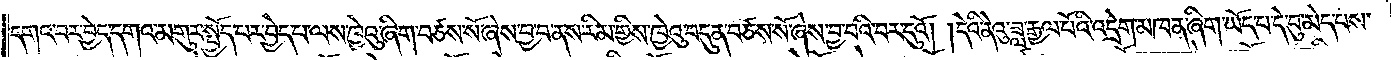དགའ་བར་བྱེད་དགའ་མགུར་སྤྱོད་པར་བྱེད་པ་ལས་ཁྱེའུ་ཞིག་བཙས་སོ་ཞེས་བྱ་བ་ནས་རིམ་གྱིས་ཁྱེའུ་བདུན་བཙས་སོ་ཞེས་བྱ་བའི་བར་དུའོ། །དེའི་ནེའུ་ཟླ་རྒྱལ་པོའི་འདྲེག་མཁན་ཞིག་ཡོད་པ་དེ་བུ་མེད་པས་
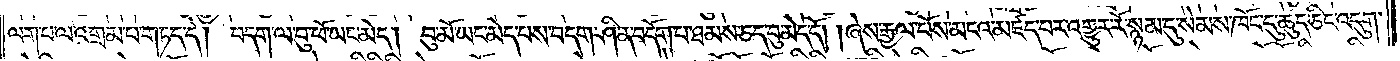ལག་པ་ལ་འགྲམ་པ་གཏད་དེ། བདག་ལ་བུ་ཕོ་ཡང་མེད། བུ་མོ་ཡང་མེད་པས་བདག་ཤིན་བདོག་པ་ཐམས་ཅད་བུ་མེད་དོ། །ཞེས་རྒྱལ་པོས་མངའ་མཛད་པར་འགྱུར་རོ་སྙམ་དུ་སེམས་ཁོང་དུ་ཆུད་ཅིང་འདུག་
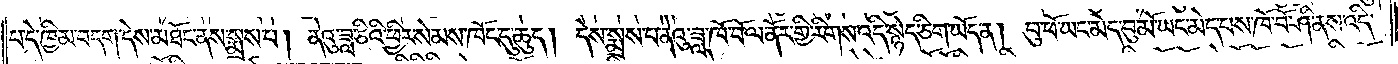པ་དེ་ཁྱིམ་བདག་དེས་མཐོང་ནས་སྨྲས་པ། ནེའུ་ཟླ་ཅིའི་ཕྱིར་སེམས་ཁོང་དུ་ཆུད། དེས་སྨྲས་པ་ནེའུ་ཟླ་ཁོ་བོ་ལ་ནོར་གྱི་རིགས་འདི་སྙེད་ཅིག་ཡོད་ན། བུ་ཕོ་ཡང་མེད་བུ་མོ་ཡང་མེད་པས་ཁོ་བོ་ཤི་ནས་འདི་
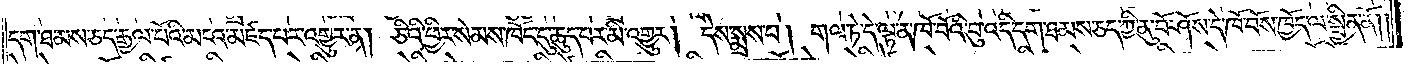དག་ཐམས་ཅད་རྒྱལ་པོའི་མངའ་མཛད་པར་འགྱུར་ན། ཅིའི་ཕྱིར་སེམས་ཁོང་དུ་ཆུད་པར་མི་འགྱུར། དེས་སྨྲས་པ། གལ་ཏེ་དེ་ལྟ་ན་ཁོ་བོའི་བུ་འདི་དག་ཐམས་ཅད་ཀྱི་ནུ་བོ་ཤོས་དེ་ཁོ་བོས་ཁྱོད་ལ་སྦྱིན་ནོ། །
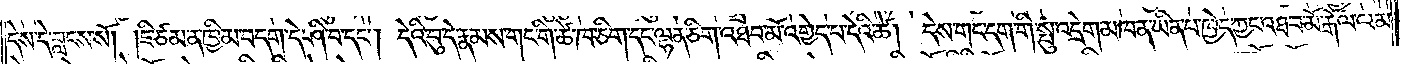དེས་དེ་བླངས་སོ། །ཇི་ཙམ་ན་ཁྱིམ་བདག་དེ་ཤི་བ་དང༌། དེའི་བུ་དེ་རྣམས་གང་གི་ཚེ་ཁ་ཅིག་དང་ལྷན་ཅིག་འཐབ་མོ་འགྱེད་པ་དེའི་ཚེ། དེས་གང་དག་གི་སྤུ་འདྲེག་མཁན་ཡིན་པ་ཁྱེད་ཀྱང་འཐབ་མོ་རྒོལ་ལམ་
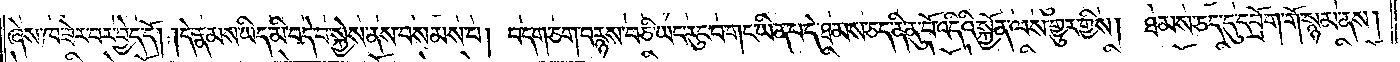ཞེས་ཁ་ཟེར་བར་བྱེད་དོ། །དེ་རྣམས་ཡིད་མི་བདེ་བ་སྐྱེས་ནས་བསམས་པ། བདག་ཅག་བརྙས་པ་ཅི་ཡང་རུང་བ་གང་ཡིན་པ་དེ་ཐམས་ཅད་ནི་ནུ་བོ་འདིའི་སྐྱོན་ལས་གྱུར་གྱིས། ཐམས་ཅད་དུ་དབྲོག་གོ་སྙམ་ནས།
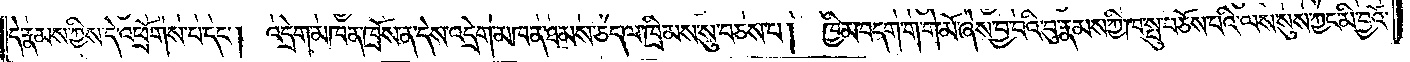དེ་རྣམས་ཀྱིས་དེ་འཕྲོགས་པ་དང༌། འདྲེག་མཁན་ཁྲོས་ན་དེས་འདྲེག་མཁན་ཐམས་ཅད་ལ་ཁྲིམས་སུ་བཅས་པ།  ཁྱིམ་བདག་ག་གེ་མོ་ཞེས་བྱ་བའི་བུ་རྣམས་ཀྱི་ཁ་སྤུ་བཅོས་པའི་ལས་སུས་ཀྱང་མི་བྱའོ་
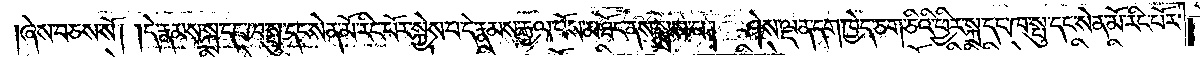།ཞེས་བཅས་སོ། །དེ་རྣམས་སྐྲ་དང་ཁ་སྤུ་དང་སེན་མོ་རིང་པོར་སྐྱེས་པ་དེ་རྣམས་རྒྱལ་པོས་མཐོང་ནས་སྨྲས་པ། ཤེས་ལྡན་དག་ཁྱེད་ཅག་ཅིའི་ཕྱིར་སྐྲ་དང་ཁ་སྤུ་དང་སེན་མོ་རིང་པོར་
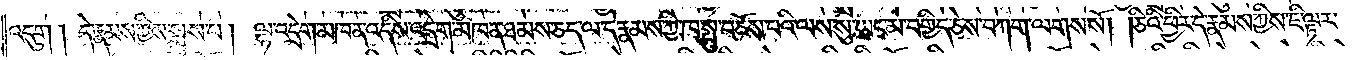འདུག །དེ་རྣམས་ཀྱིས་སྨྲས་པ། ལྷ་འདྲེག་མཁན་འདིས་འདྲེག་མཁན་ཐམས་ཅད་ལ་དེ་རྣམས་ཀྱི་ཁ་སྤུ་བཅོས་པའི་ལས་སུ་ཡང་མ་བགྱིད་ཅེས་བཀག་ལགས་སོ། །ཅིའི་ཕྱིར་དེ་རྣམས་ཀྱིས་ཇི་ལྟར་
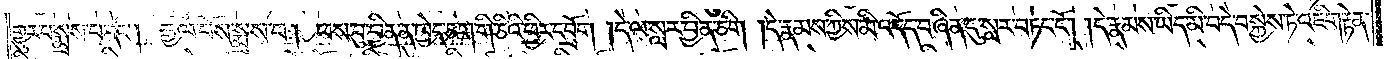གྱུར་པ་སྨྲས་པ་དང༌། རྒྱལ་པོས་སྨྲས་པ། ཕས་བུ་བྱིན་ན་ཁྱེད་ཅག་གི་ཅིའི་ཕྱིར་དབྲོག །དེ་ལ་སླར་བྱིན་ཅིག །དེ་རྣམས་ཀྱིས་མི་འདོད་བཞིན་དུ་སླར་བཏང་ངོ༌། །དེ་རྣམས་ཡིད་མི་བདེ་བ་སྐྱེས་ཏེ་འཇིག་རྟེན་
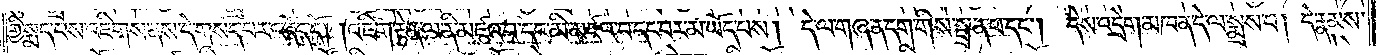གྱི་སྨད་པས་འཇིགས་ནས་དེ་གསད་པར་འདོད་དོ། །འཇིག་རྟེན་ལ་ནི་མཛའ་བ་དང་མི་མཛའ་བ་དང་བར་མ་ཡོད་པས། དེ་ལ་གཞན་དག་གིས་སྦྲན་པ་དང༌། དེས་འདྲེག་མཁན་དེ་ལ་སྨྲས་པ། དེ་རྣམས་
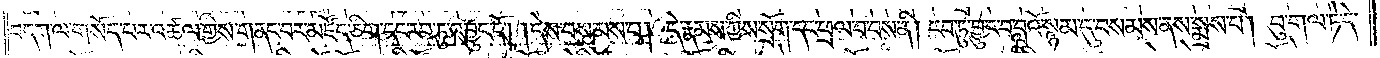བདག་ལ་གསོད་པར་འཚལ་གྱིས་གནང་བར་མཛོད་ཅིག་དང་རབ་ཏུ་འབྱུང་ངོ༌། །དེས་བསམས་པ། དེ་རྣམས་ཀྱིས་སྲོག་དང་ཕྲལ་བ་བས་ནི། རབ་ཏུ་བྱུང་བ་བླའོ་སྙམ་དུ་བསམས་ནས་སྨྲས་པ། བུ་གལ་ཏེ་དེ་
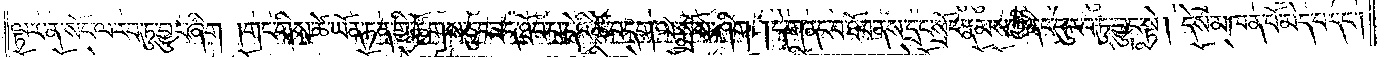ལྟར་ན་སོང་ལ་རབ་ཏུ་བྱུང་ཞིག །གང་གིས་ཚེ་ཡོན་ཏན་གྱི་ཚོགས་ཅུང་ཟད་ཐོབ་པ་དེའི་ཚེ་བདག་ལ་སྨྲོས་ཤིག །དེ་གནང་བ་ཐོབ་ནས་དྲང་སྲོང་རྣམས་ཀྱི་ནང་དུ་རབ་ཏུ་བྱུང་སྟེ། དེས་མཁན་པོ་མེད་པ་དང༌།
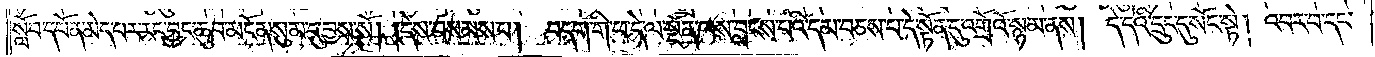སློབ་དཔོན་མེད་པར་རང་བྱང་ཆུབ་མངོན་སུམ་དུ་བྱས་སོ། །དེས་བསམས་པ། བདག་གི་ཕ་དེ་ལ་སྔོན་ཁས་བླངས་པའི་དམ་བཅས་པ་དེ་སྟོན་དུ་འགྲོའོ་སྙམ་ནས། དེ་དེའི་དྲུང་དུ་སོང་སྟེ། འབར་བ་དང་
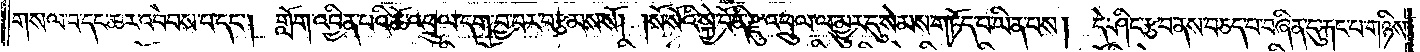གསལ་བ་དང་ཆར་འབེབས་པ་དང༌། གློག་འབྱིན་པའི་ཆོ་འཕྲུལ་དག་བྱ་བར་བརྩམས་སོ། །སོ་སོའི་སྐྱེ་བོ་ནི་རྫུ་འཕྲུལ་ལ་མྱུར་དུ་སེམས་གཏོད་པ་ཡིན་པས། དེ་ཤིང་རྩ་བ་ནས་བཅད་པ་བཞིན་དུ་རྐང་པ་གཉིས་
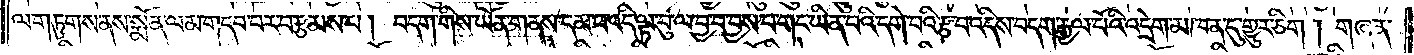ལ་གཏུགས་ནས་སྨོན་ལམ་གདབ་པར་བརྩམས་པ། བདག་གིས་ཡོན་གནས་དམ་པ་འདི་ལྟ་བུ་ལ་བྱ་བ་བྱས་པ་གང་ཡིན་པའི་དགེ་བའི་རྩ་བ་འདིས་བདག་རྒྱལ་པོའི་འདྲེག་མཁན་དུ་གྱུར་ཅིག །གཞན་
